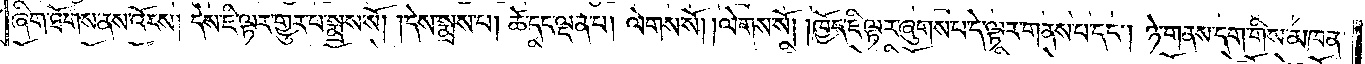ཞིག་ཐོགས་ནས་འོངས། དེས་ཇི་ལྟར་གྱུར་པ་སྨྲས་སོ། །དེས་སྨྲས་པ། ཚེ་དང་ལྡན་པ། ལེགས་སོ། །ལེགས་སོ། །ཁྱོད་ཇི་ལྟར་ཞུགས་པ་དེ་ལྟར་གནས་པ་དང༌། ཉེ་གནས་དག་གིས་མཁན་
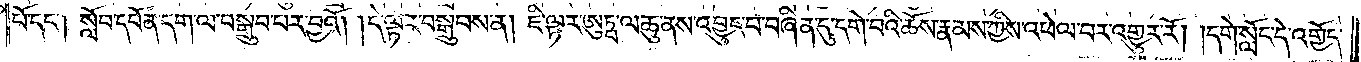པོ་དང༌། སློབ་དཔོན་དག་ལ་བསྒྲུབ་པར་བྱའོ། །དེ་ལྟར་བསྒྲུབས་ན། ཇི་ལྟར་ཨུཏྤ་ལ་ཆུ་ནས་འབྱུང་བ་བཞིན་དུ་དགེ་བའི་ཆོས་རྣམས་ཀྱིས་འཕེལ་བར་འགྱུར་རོ། །དགེ་སློང་དེ་འགྱོད་
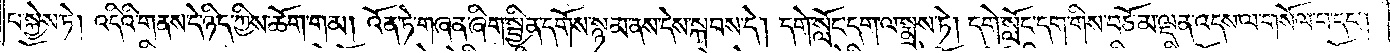པ་སྐྱེས་ཏེ། འདིའི་གནས་དེ་ཉིད་ཀྱིས་ཆོག་གམ། འོན་ཏེ་གཞན་ཞིག་སྦྱིན་དགོས་སྙམ་ནས་དེས་སྐབས་དེ། དགེ་སློང་དག་ལ་སྨྲས་ཏེ། དགེ་སློང་དག་གིས་བཅོམ་ལྡན་འདས་ལ་གསོལ་བ་དང༌།
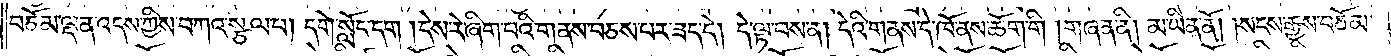བཅོམ་ལྡན་འདས་ཀྱིས་བཀའ་སྩལ་པ། དགེ་སློང་དག །དེས་རེ་ཞིག་པའི་གནས་བཅས་པར་ཟད་དེ། དེ་ལྟ་བས་ན། དེའི་གནས་དེ་ཁོ་ནས་ཆོག་གི །གཞན་ནི། མ་ཡིན་ནོ། །སངས་རྒྱས་བཅོམ་
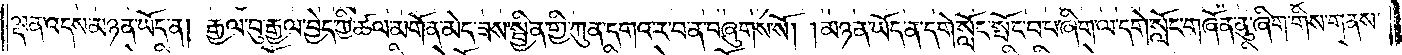ལྡན་འདས་མཉན་ཡོད་ན། རྒྱལ་བུ་རྒྱལ་བྱེད་ཀྱི་ཚལ་མགོན་མེད་ཟས་སྦྱིན་གྱི་ཀུན་དགའ་ར་བ་ན་བཞུགས་སོ། །མཉན་ཡོད་ན་དགེ་སློང་སྤོང་བ་པ་ཞིག་ལ་དགེ་སློང་གཞོན་ནུ་ཞིག་གིས་གནས་
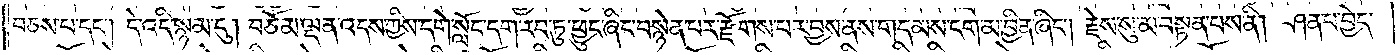བཅས་པ་དང༌། དེ་འདི་སྙམ་དུ། བཅོམ་ལྡན་འདས་ཀྱིས་དགེ་སློང་དག་རབ་ཏུ་ཕྱུང་ཞིང་བསྙེན་པར་རྫོགས་པར་བྱས་ནས་གདམས་ངག་མ་བྱིན་ཞིང༌། རྗེས་སུ་མ་བསྟན་པས་ནི། ཤན་པ་བྱེད་
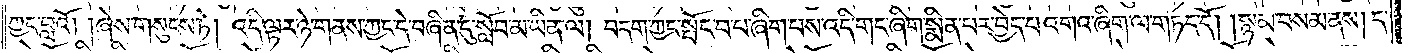ཀྱང་བླའོ། །ཞེས་གསུངས་ཏེ། འདི་ལྟར་ཉེ་གནས་ཀྱང་དེ་བཞིན་དུ་སློབ་མ་ཡིན་ལ། བདག་ཀྱང་སྤོང་བ་པ་ཞིག་པས་འདི་གང་ཞིག་སྨིན་པར་བྱེད་པ་འགའ་ཞིག་ལ་གཏད་དོ། །སྙམ་བསམ་ནས། ད་
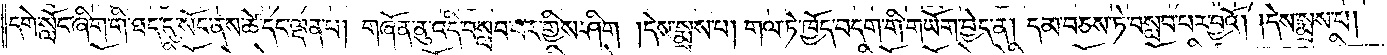དགེ་སློང་ཞིག་གི་ཐད་དུ་སོང་ནས་ཚེ་དང་ལྡན་པ། གཞོན་ནུ་འདི་བསླབ་པར་གྱིས་ཤིག །དེས་སྨྲས་པ། གལ་ཏེ་ཁྱོད་བདག་གི་གཡོག་བྱེད་ན། དམ་བཅས་ཏེ་བསླབ་པར་བྱའོ། །དེས་སྨྲས་པ།
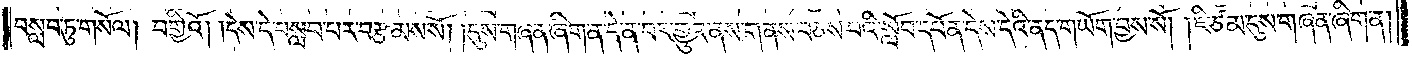བསླབ་ཏུ་གསོལ། བགྱིའོ། །དེས་དེ་བསླབ་པར་བརྩམས་སོ། །དུས་གཞན་ཞིག་ན་དེ་ན་བར་གྱུར་ནས་གནས་བཅས་པའི་སློབ་དཔོན་དེས་དེའི་ནད་གཡོག་བྱས་སོ། །ཇི་ཙམ་དུས་གཞན་ཞིག་ན།
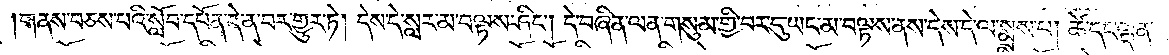གནས་བཅས་པའི་སློབ་དཔོན་དེ་ན་བར་གྱུར་ཏེ། དེས་དེ་སླར་མ་བལྟས་ཤིང༌། དེ་བཞིན་ལན་གསུམ་གྱི་བར་དུ་ཡང་མ་བལྟས་ནས་དེས་དེ་ལ་སྨྲས་པ། ཚེ་དང་ལྡན་
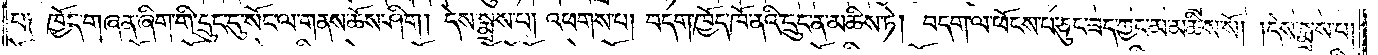པ༑ ཁྱོད་གཞན་ཞིག་གི་དྲུང་དུ་སོང་ལ་གནས་ཆོས་ཤིག། དེས་སྨྲས་པ། འཕགས་པ། བདག་ཁྱོད་ཁོ་ནའི་དྲུང་ན་མཆིས་ཏེ། བདག་ལ་ཕོངས་པ་ཅུང་ཟད་ཀྱང་མ་མཆིས་སོ། །དེས་སྨྲས་པ།
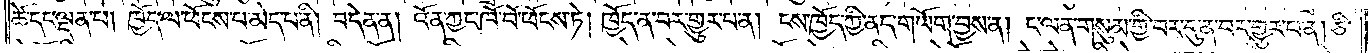ཚེ་དང་ལྡན་པ། ཁྱོད་ལ་ཕོངས་པ་མེད་པ་ནི། བདེན་ན། འོན་ཀྱང་ཁོ་བོ་ཕོངས་ཏེ། ཁྱོད་ན་བར་གྱུར་པ་ན། ངས་ཁྱོད་ཀྱི་ནད་གཡོག་བྱས་ན། ང་ལན་གསུམ་གྱི་བར་དུ་ན་བར་གྱུར་པ་ན། ཅི་
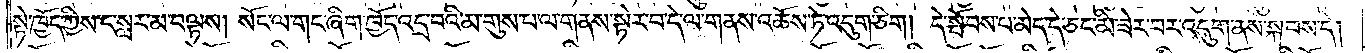སྟེ་ཁྱོད་ཀྱིས་ང་སླར་མ་བལྟས། སོང་ལ་གང་ཞིག་ཁྱོད་འདྲ་བའི་མ་གུས་པ་ལ་གནས་སྟེར་བ་དེ་ལ་གནས་འཆོས་ཏེ་འདུག་ཅིག །དེ་སྤོབས་པ་མེད་དེ་ཅང་མི་ཟེར་བར་འདུག་ནས་སྐབས་དེ།
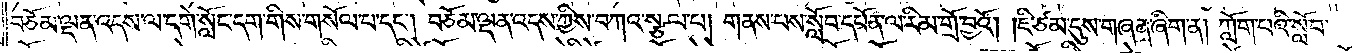བཅོམ་ལྡན་འདས་ལ་དགེ་སློང་དག་གིས་གསོལ་པ་དང༌། བཅོམ་ལྡན་འདས་ཀྱིས་བཀའ་སྩལ་པ། གནས་པས་སློབ་དཔོན་ལ་རིམ་གྲོ་བྱའོ། །ཇི་ཙམ་དུས་གཞན་ཞིག་ན། ཀློག་པའི་སློབ་
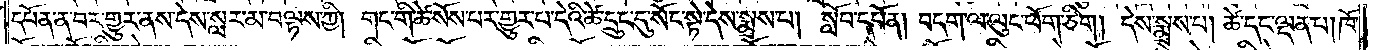དཔོན་ན་བར་གྱུར་ནས་དེས་སླར་མ་བལྟས་ཀྱི། གང་གི་ཚེ་སོས་པར་གྱུར་པ་དེའི་ཚེ་དྲུང་དུ་སོང་སྟེ་དེས་སྨྲས་པ། སློབ་དཔོན། བདག་ལ་ལུང་ཕོག་ཅིག །དེས་སྨྲས་པ། ཚེ་དང་ལྡན་པ། ཁོ་
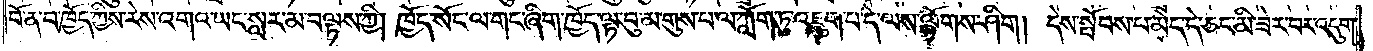བོ་ན་བ་ཁྱོད་ཀྱིས་རེས་འགའ་ཡང་སླར་མ་བལྟས་ཀྱི། ཁྱོད་སོང་ལ་གང་ཞིག་ཁྱོད་ལྟ་བུ་མ་གུས་པ་ལ་ཀློག་ཏུ་འཇུག་པ་དེ་ལས་ལྷོགས་ཤིག། དེས་སྤོབས་པ་མེད་དེ་ཅང་མི་ཟེར་བར་འདུག་
